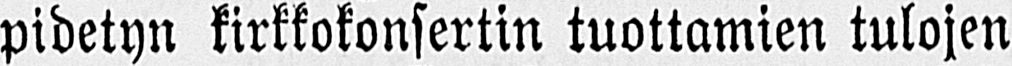pidetyn kirkkokonsertin tuottamien tulojen
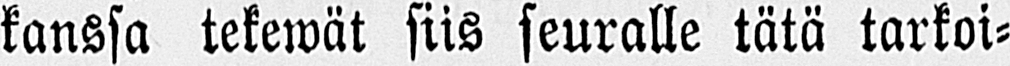kanssa tekewät siis seuralle tätä tarkoi-
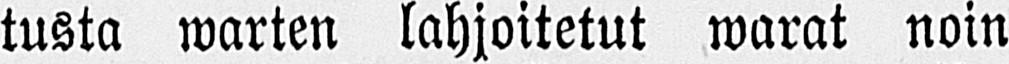tusta warten lahjoitetut warat noin
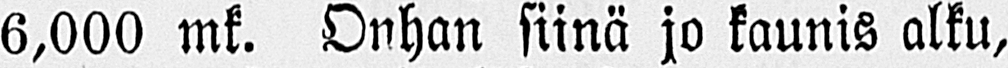6,000 mk. Onhan siinä jo kaunis alku,
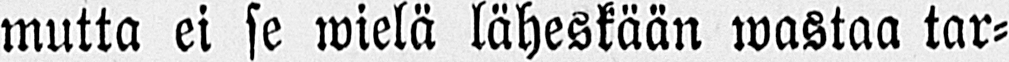mutta ei se wielä läheskään wastaa tar-
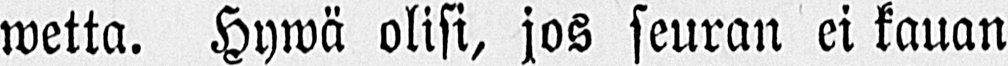wetta. Hywä olisi, jos seuran ei kauan
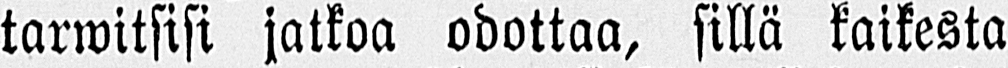tarwitsisi jatkoa odottaa, sillä kaikesta
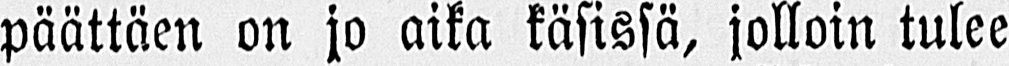päättäen on jo aika käsissä, jolloin tulee
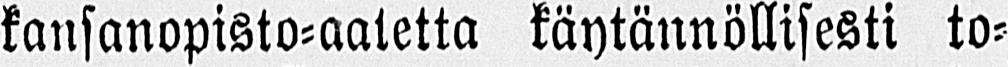kansanopisto-aatetta käytännöllisesti to-
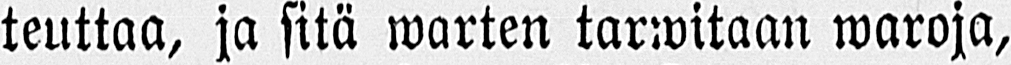teuttaa, ja sitä warten tarwitaan waroja,
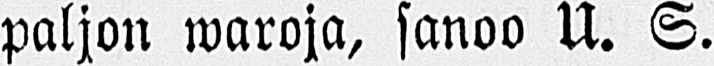paljon waroja, sanoo U. S.
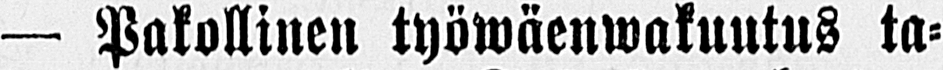— Pakollinen työwäenwakuutus ta-
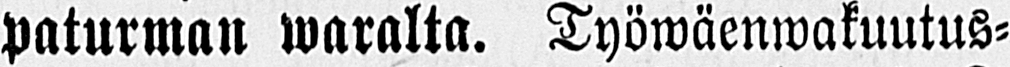paturman waralta. Työwäenwakuutus-
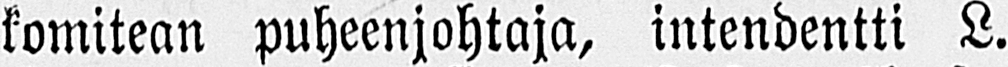komitean puheenjohtaja, intendentti L.
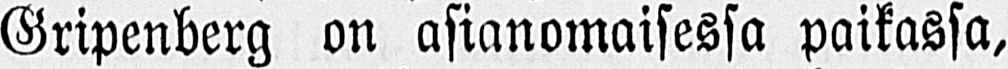Gripenberg on asianomaisessa paikassa,
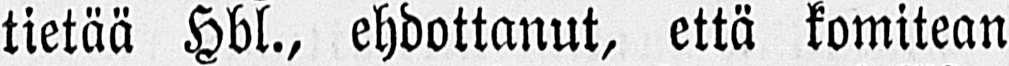tietää Hbl., ehdottanut, että komitean
